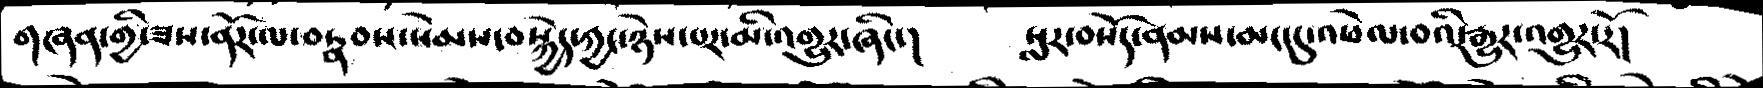གཞན་གྱིཟས་ནོར་ལ་བརྣབས་སེམས་བསྐྱེད་ཀྱང་ཉེས་པར་མི་འགྱུར་ཞིང་།   སླར་བསོད་ནམས་མང་དུ་འཕེལ་བའི་རྒྱུར་འགུར་རོ།
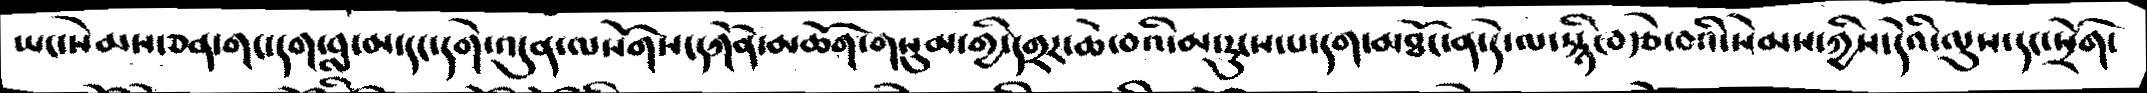ཡང་སེམས་ཅན་གང་དག་བླ་མ་དང་དགེ་འདུན་ལ་ལསོགས་དཀོན་མཆོག་གསུམ་གྱི་དགྲར་ཆེ་བའི་མ་རུངས་པ་དག་མཐོང་ན་དེ་ལ་སྙིང་བརྩེ་བའི་སེམས་ཀྱིས་དེའི་ལུས་དང་སྲོག་
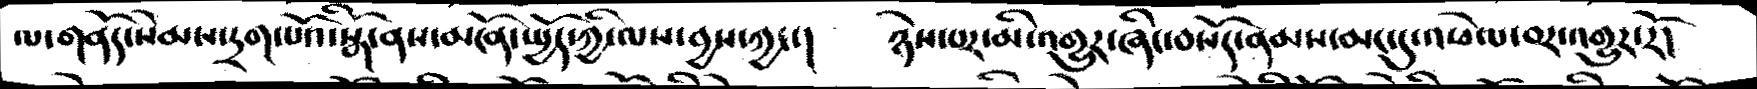ལ་གནོད་སེམས་དྲག་པོའི་སྒོ་ནས་མངོན་སྤྱོད་ཀྱི་ལས་བྱས་ཀྱང་།   ཉེས་པར་མི་འགྱུར་ཞིང་བསོད་ནམས་མང་དུ་འཕེལ་བར་འགྱུར་རོ།
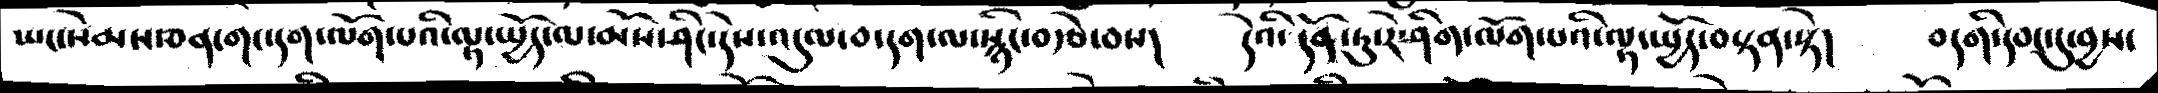ཡང་སེམས་ཅན་གང་དག་ལོག་པའི་ལྟ་སྤྱོད་ལ་མོས་ཤིང་དེས་འདུལ་བ་དག་ལ་སྙིང་བརྩེ་བས།   དེའི་དོན་ཏུ་རེ་ཤིག་ལོག་པའི་ལྟ་སྤྱོད་བསྟན་སྟེ།  བདགི་དབང་དུ་བྱས་
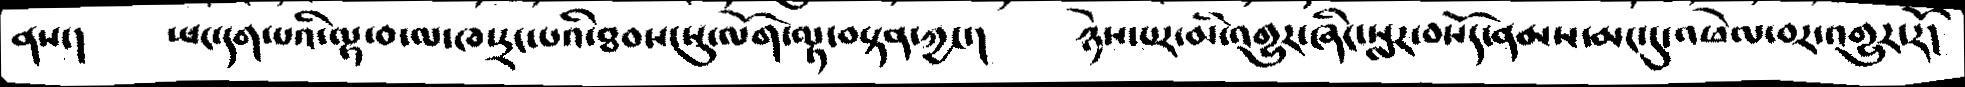ནས་།    ཡང་དག་པའི་ལྟ་བ་ལ་ཁ་དྲང་པའི་ཐབས་སུ་ལོག་ལྟ་བསྟན་ཀྱང་།   ཉེས་པར་མི་འགྱུར་ཞིང་སླར་བསོད་ནམས་མང་དུ་འཕེལ་བར་འགྱུར་རོ།
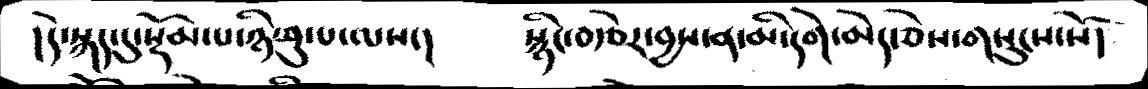།དེ་སྐད་དུ་སྡོམ་པ་ཉི་ཤུ་པ་ལས་།   སྙིང་བརྩེར་བྱས་ན་མི་དགེ་མེད་ཅེས་གསུངས་སོ།
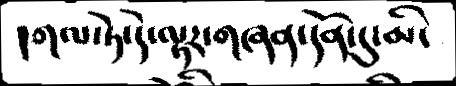།གལ་ཏེ་དེ་ལྟར་གཞན་དོན་དུ་མི་
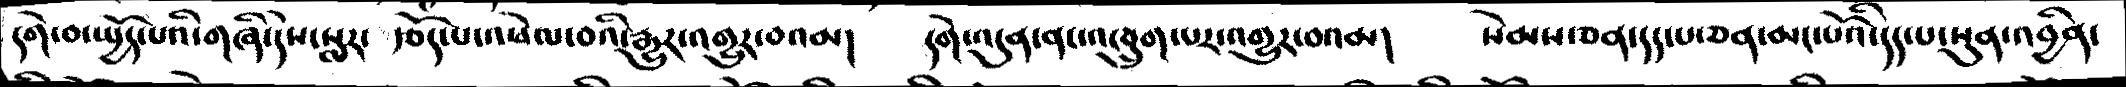དགེ་བ་སྤྱོད་པའི་གཞི་དེས་སླར་  རྩོད་པ་འཕེལ་བའི་རྒྱུར་འགྱུར་བའམ།   དགེ་འདུན་ནང་འཁྲུག་པར་འགྱུར་བའམ།   སེམས་ཅན་དད་པ་ཅན་མང་པོའི་དད་པ་སུན་འབྱིན་
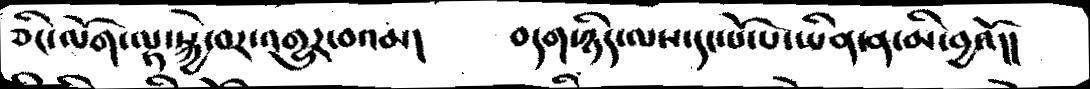ཅིང་ལོག་ལྟ་སྐྱེ་བར་འགྱུར་བའམ།   བདག་ཉིད་ལས་དང་པོ་པ་ཡིན་ན་མི་བྱའོ།།
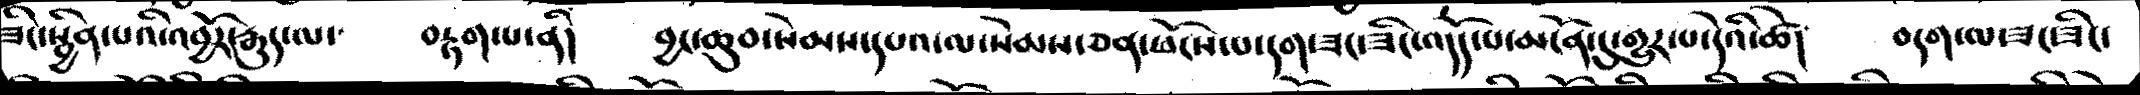ཟིང་སྦྱིན་པའི་འབྱོར་རྒྱུད་ལ་   བརྟག་པ་ནི།    བྱང་ཆུབ་སེམས་དཔའ་ལ་སེམས་ཅན་ཕོངས་པ་དག་ཟང་ཟིང་འདོད་པ་མངོན་དུ་གྱུར་པ་དེའི་ཚེ།   བདག་ལ་ཟང་ཟིང་
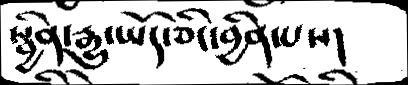སྦྱིན་རྒྱུ་ཡོད་ཅིང་བྱིན་པས།
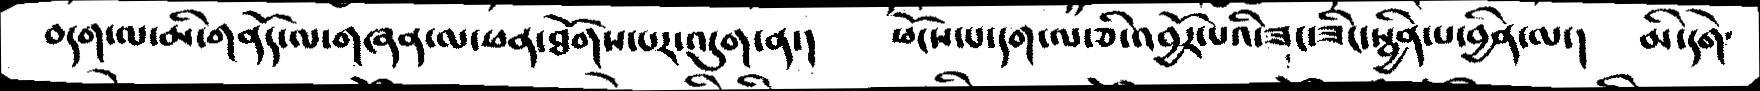བདག་ལ་མི་གནོད་ལ་གཞན་ལ་ཕན་ཐོགས་པར་འདུག་ན།   ཕོངས་པ་དག་ལ་ཅི་འབྱོར་པའི་ཟང་ཟིང་སྦྱིན་པ་བྱིན་ལ་།   མི་དགེ་
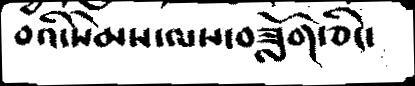བའི་སེམས་ལས་བཟློག་ཅིང་
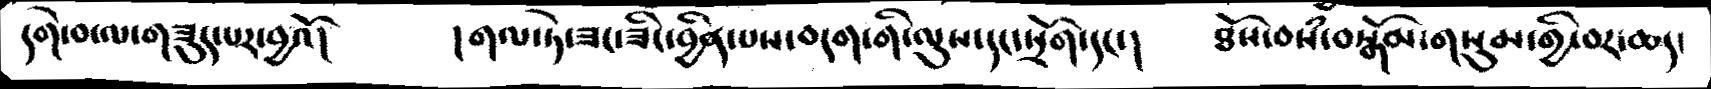དགེ་བ་ལ་གཟུད་པར་བྱའོ།    །གལ་ཏེ་ཟང་ཟིང་བྱིན་པས་བདག་གི་ལུས་དང་སྲོག་དང་།   ཐོས་བསཾ་བསྒོམ་གསུམ་གྱི་བར་ཆད་
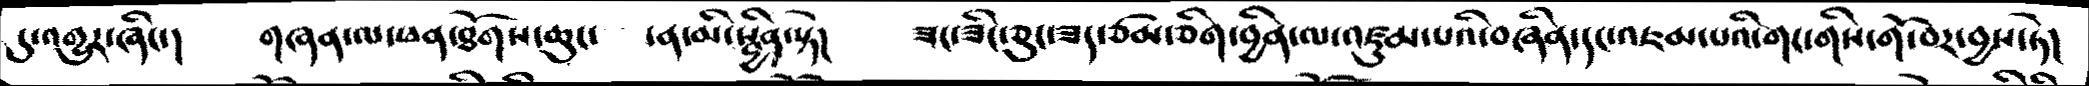དུ་འགྱུར་ཞིང་།    གཞན་ལ་ཕན་ཐོགས་ཆུང་   ངན་མི་སྦྱིན་སྟེ།   ཟང་ཟིང་ཅུང་ཟད་ཙམ་ཅིག་བྱིན་ལ་འཛུམ་པའི་བཞིན་དང་འཇམ་པའི་གང་གིས་གོ་བར་བྱས་ཏེ།
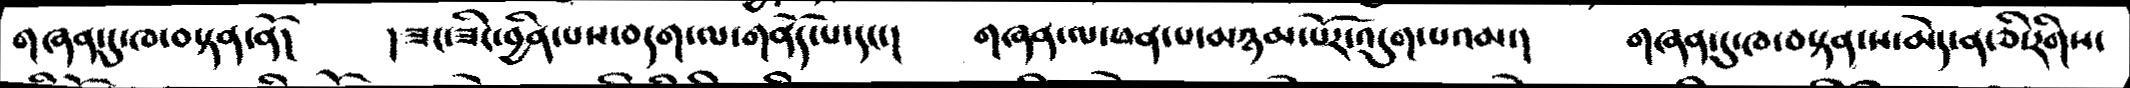གཞན་དུ་ཁ་བསྟན་ནོ།    །ཟང་ཟིང་བྱིན་པས་བདག་ལ་གནོད་པ་དང་།   གཞན་ལ་ཕན་པ་མཉམ་པོར་འདུག་པའམ་།   གཞན་དུ་ཁ་བསྟན་ས་མེད་ན་ཅི་རིགས་
